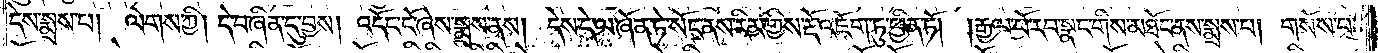དེས་སྨྲས་པ། ལེགས་ཀྱི། དེ་བཞིན་དུ་བྱས། འདོང་ངོ་ཞེས་སྨྲས་ནས། དེས་དེ་ལ་ཞོན་ཏེ་སོང་ནས་རིམ་གྱིས་རྡོ་འཇོག་ཏུ་ཕྱིན་ཏོ། །རྒྱལ་པོ་རབ་སྣང་གིས་མཐོང་ནས་སྨྲས་པ། གསོས་པ་
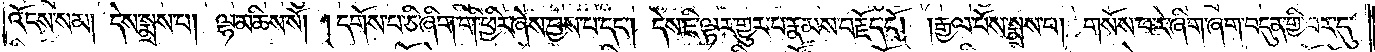འོངས་སམ། དེས་སྨྲས་པ། ལྷ་མཆིས་སོ། །དགོས་པ་ཅི་ཞིག་གི་ཕྱིར་ཞེས་བྱས་པ་དང༌། དེས་ཇི་ལྟར་གྱུར་པ་རྣམས་བརྗོད་དོ། །རྒྱལ་པོས་སྨྲས་པ། གསོས་པ་རེ་ཞིག་ཞག་བདུན་གྱི་བར་དུ་
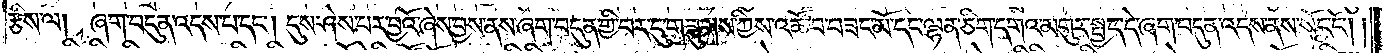རྩིས་ལ། ཞག་བདུན་འདས་པ་དང༌། དུས་ཤེས་པར་བྱའོ་ཞེས་བྱས་ནས་ཞག་བདུན་གྱི་བར་དུ་གཟུགས་ཀྱིས་འཚོ་བ་བཟང་མོ་དང་ལྷན་ཅིག་དགའ་མགུར་སྤྱད་དེ་ཞག་བདུན་འདས་ནས་སོང་ངོ༌། །
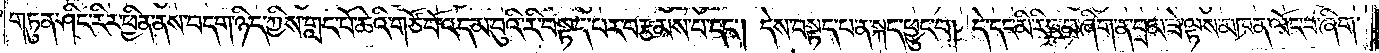གཏུན་ཤིང་རིར་ཕྱིན་ནས་བདག་ཉིད་ཀྱིས་གླང་པོ་ཆེའི་གཙོ་བོ་འདམ་བུའི་རི་བསྟད་པར་བརྩམས་པ་དང༌། དེས་བསྟད་པ་ན་སྐད་ཕྱུང་བ། དེ་དང་མི་རིང་བ་ཞིག་ན་བྲམ་ཟེ་ལྟས་མཁན་ལོང་བ་ཞིག་
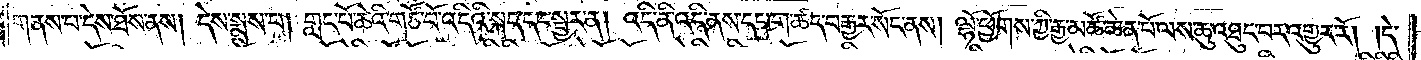གནས་པ་དེས་ཐོས་ནས། དེས་སྨྲས་པ། གླང་པོ་ཆེའི་གཙོ་བོ་འདིའི་སྐད་དང་སྦྱར་ན། འདི་ནི་འདི་ནས་དཔག་ཚད་བརྒྱར་སོང་ནས། ལྷོ་ཕྱོགས་ཀྱི་རྒྱ་མཚོ་ཆེན་པོ་ལས་ཆུ་འཐུང་བར་འགྱུར་རོ། །དེ་
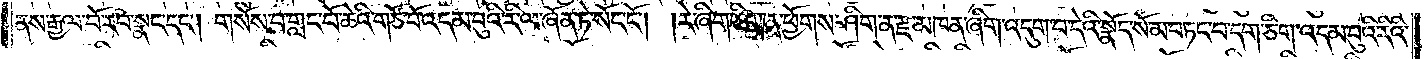ནས་རྒྱལ་པོ་རབ་སྣང་དང༌། གསོས་པ་གླང་པོ་ཆེའི་གཙོ་བོ་འདམ་བུའི་རི་ལ་ཞོན་ཏེ་སོང་ངོ༌། །རེ་ཞིག་ཅིག་ན་ཕྱོགས་ཤིག་ན་རྫ་མཁན་ཞིག་འདུག་པ་དེའི་སྣོད་སོམ་བཏང་བ་དག་ཅིག་འདམ་བུའི་རིའི་
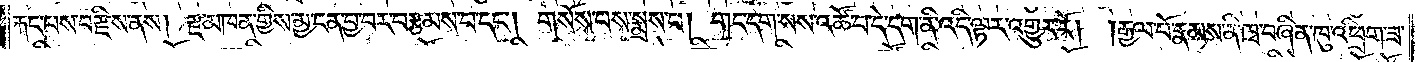རྐང་པས་བརྫིས་ནས། རྫ་མཁན་གྱིས་མྱ་ངན་བྱ་བར་བརྩམས་བ་དང༌། གསོས་པས་སྨྲས་པ། གང་དག་སས་འཚོ་བ་དེ་དག་ནི་འདི་ལྟར་འགྱུར་རོ། །རྒྱལ་པོ་རྣམས་ནི་ཁྭ་བཞིན་ཁུ་འཕྲིག་ཟ་
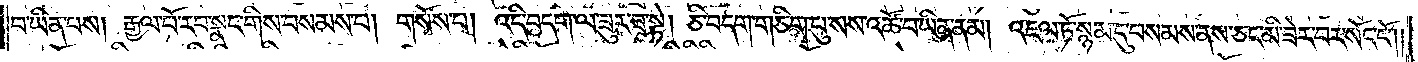བ་ཡིན་པས། རྒྱལ་པོ་རབ་སྣང་གིས་བསམས་པ། གསོས་པ། འདི་བདག་ལ་ཟུར་ཟ་སྟེ། ཅི་བདག་གཅིག་པུ་སས་འཚོ་བ་ཡིན་ནམ། འཇལ་ཏོ་སྙམ་དུ་བསམས་ནས་ཅང་མི་ཟེར་བར་སོང་ངོ༌། །
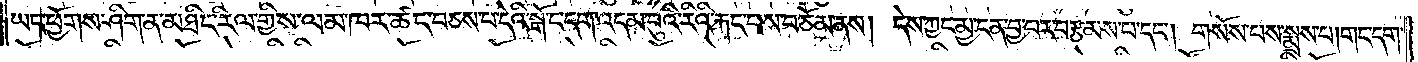ཡང་ཕྱོགས་ཤིག་ན་མཐིང་རིལ་གྱིས་ལམ་ཁར་ཚང་བཅས་པ་དེའི་སྒོ་ང་དག་འདམ་བུའི་རིའི་རྐང་པས་བཅོམ་ནས། དེས་ཀྱང་མྱ་ངན་བྱ་བར་བརྩམས་བ་དང༌། གསོས་པས་སྨྲས་པ། གང་དག་
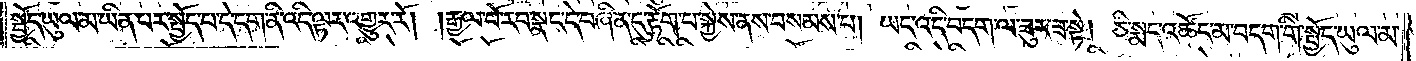སྤྱོད་ཡུལ་མ་ཡིན་པར་སྤྱོད་པ་དེ་དག་ནི་འདི་ལྟར་འགྱུར་རོ། །རྒྱལ་པོ་རབ་སྣང་དེ་བཞིན་དུ་རྟོག་པ་སྐྱེས་ནས་བསམས་པ། ཡང་འདི་བདག་ལ་ཟུར་ཟ་སྟེ། ཅི་སྨད་འཚོང་མ་བདག་གི་སྤྱོད་ཡུལ་མ་
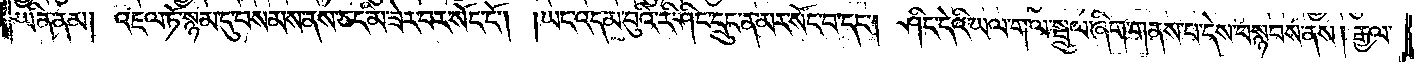ཡིན་ནམ། འཇལ་ཏོ་སྙམ་དུ་བསམས་ནས་ཅང་མི་ཟེར་བར་སོང་ངོ༌། །ཡང་འདམ་བུའི་རི་ཤིང་དྲུང་ན་མར་སོང་བ་དང༌། ཤིང་དེའི་ཡལ་ག་ལ་སྦྲུལ་ཞིག་གནས་པ་དེས་བསྙབས་ནས། རྒྱལ་
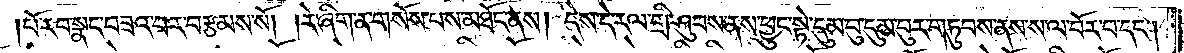པོ་རབ་སྣང་བཟའ་བར་བརྩམས་སོ། །རེ་ཞིག་ན་གསོས་པས་མཐོང་ནས། དེས་དེ་རལ་གྲི་ཤུབས་ནས་ཕྱུང་སྟེ་དུམ་བུ་དུམ་བུར་གཏུབས་ནས་ས་ལ་བོར་བ་དང༌།
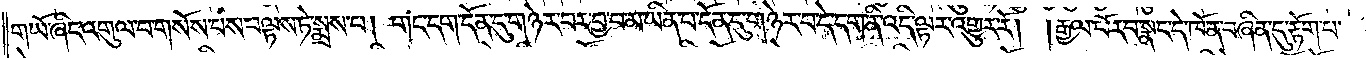གཡོ་ཞིང་འགུལ་བ་གསོས་པས་བལྟས་ཏེ་སྨྲས་པ། གང་དག་དོན་དུ་གཉེར་བར་བྱ་བ་མ་ཡིན་པ་དོན་དུ་གཉེར་བ་དེ་དག་ནི་འདི་ལྟར་འགྱུར་རོ། །རྒྱལ་པོ་རབ་སྣང་དེ་ཁོ་ན་བཞིན་དུ་རྟོག་པ་
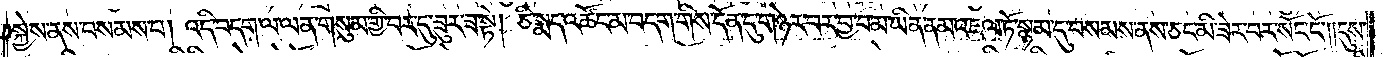སྐྱེས་ནས་བསམས་པ། འདི་བདག་ལ་ལན་གསུམ་གྱི་བར་དུ་ཟུར་ཟ་སྟེ། ཅི་སྨད་འཚོང་མ་བདག་གིས་དོན་དུ་གཉེར་བར་བྱ་བ་མ་ཡིན་ནམ་འཇལ་ཏོ་སྙམ་དུ་བསམས་ནས་ཅང་མི་ཟེར་བར་སོང་ངོ༌། །དུས་
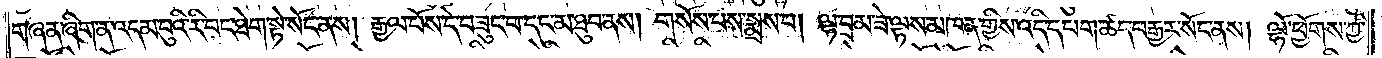གཞན་ཞིག་ན་འདམ་བུའི་རི་བང་ཐེག་སྟེ་སོང་ནས། རྒྱལ་པོས་དེ་བཟུང་བ་དང་མ་ཐུབ་ནས། གསོས་པས་སྨྲས་པ། ལྷ་བྲམ་ཟེ་ལྟས་མཁན་གྱིས་འདི་དཔག་ཚད་བརྒྱར་སོང་ནས། ལྷོ་ཕྱོགས་ཀྱི་
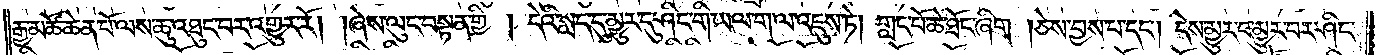རྒྱ་མཚོ་ཆེན་པོ་ལས་ཆུ་འཐུང་བར་འགྱུར་རོ། །ཞེས་ལུང་བསྟན་གྱི། དེའི་སླད་དུ་མྱུར་དུ་ཤིང་གི་ཡལ་ག་ལ་འཇུས་ཏེ། གླང་པོ་ཆེ་ཐོང་ཞིག །ཅེས་བྱས་པ་དང༌། དེས་མྱུར་བ་མྱུར་བར་ཤིང་
